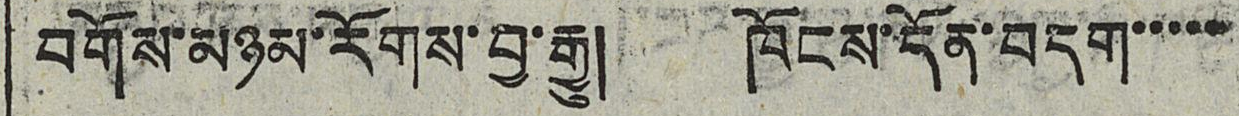བགོས་མཉམ་རོགས་བྱ་རྒྱུ། ཁོངས་དོན་བདག་་་་་
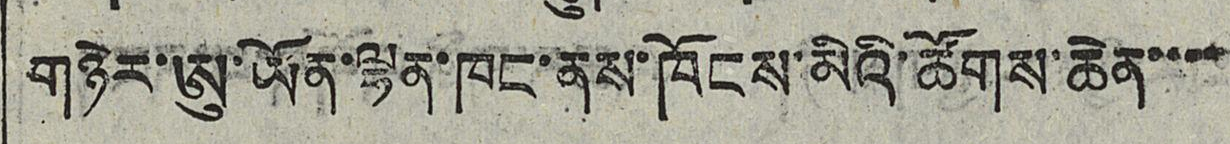གཉེར་ཨུ་ཡོན་ལྷན་ཁང་ནས་ཁོངས་མིའི་ཚོགས་ཆེན་་་་
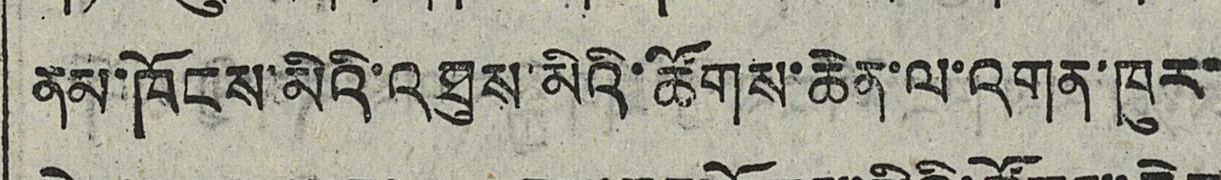ནམ་ཁོངས་མིའི་འཐུས་མིའི་ཚོགས་ཆེན་ལ་འགན་ཁུར་
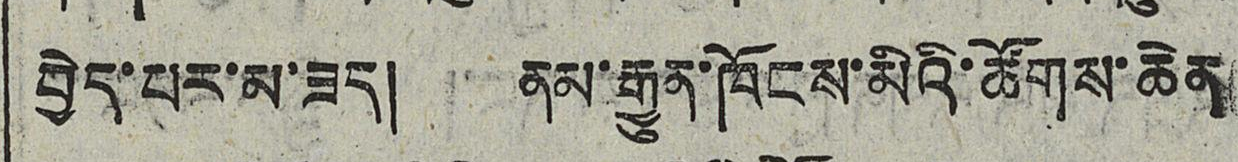བྱེད་པར་མ་ཟད། ནམ་རྒྱུན་ཁོངས་མིའི་ཚོགས་ཆེན
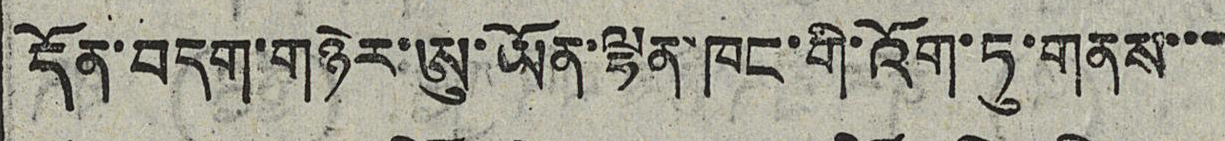དོན་བདག་གཉེར་ཨུ་ཡོན་ལྷན་ཁང་གི་འོག་ཏུ་གནས་་་
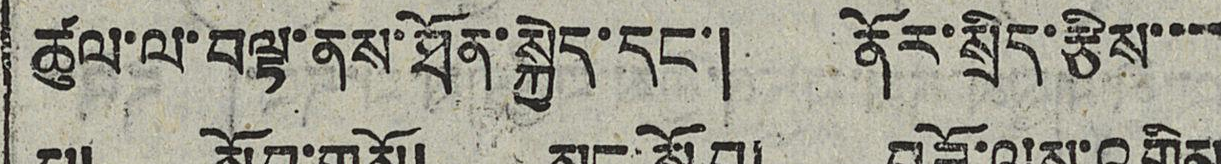ཚུལ་ལ་བལྟ་ནས་ཐོན་སྐྱེད་དང་། ནོར་སྲིད་རྩིས་་་་
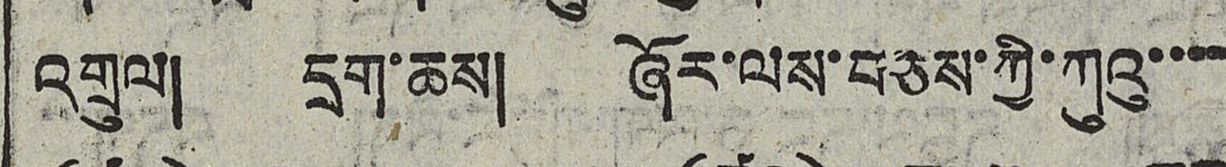འགྲུལ། དྲག་ཆས། ཞོར་ལས་བཅས་ཀྱི་ཀུའུ་་་་
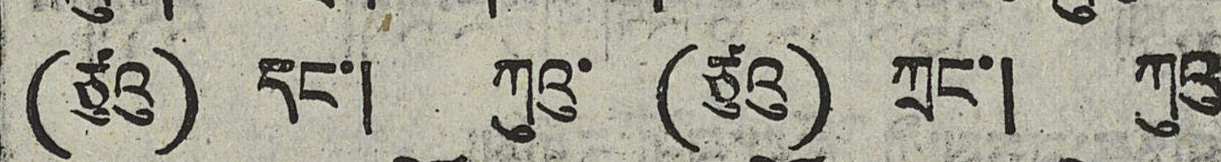(ཙུའུ) དང་། ཀྲུའུ་ (ཙུའུ) ཀྲང་། ཀུའུ་
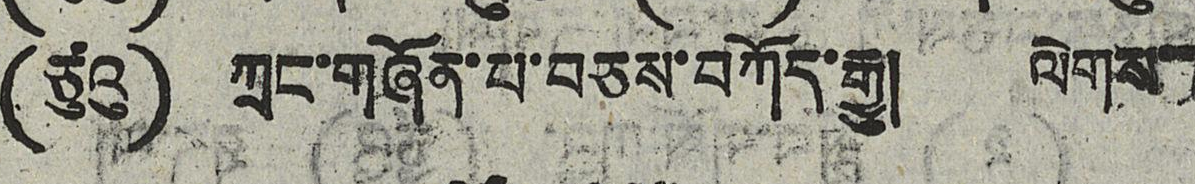(ཙུའུ) ཀྲང་གཞོན་པ་བཅས་བཀོད་རྒྱུ། ལེགས་
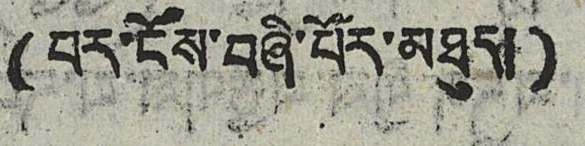(པར་ངོས་བཞི་པོར་མཐུད།)
